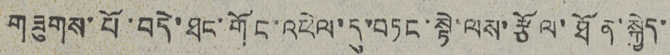གཟུགས་པོ་བདེ་ཐང་གོང་འཕེལ་དུ་བཏང་སྟེ་ལས་རྩོལ་ཐོན་སྐྱེད་
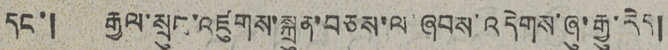དང་། རྒྱལ་སྲུང་འཛུགས་སྐྲུན་བཅས་ལ་ཞབས་འདེགས་ཞུ་རྒྱུ་རེད།
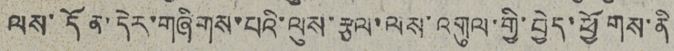ལས་དོན་དེར་གཞིགས་པའི་ལུས་རྩལ་ལས་འགུལ་གྱི་བྱེད་ཕྱོགས་ནི
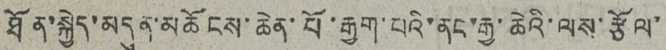ཐོན་སྐྱེད་མདུན་མཆོངས་ཆེན་པོ་རྒྱག་པའི་ནང་རྒྱ་ཆེའི་ལས་རྩོལ་
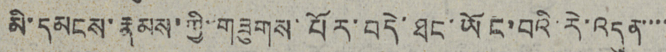མི་དམངས་རྣམས་ཀྱི་གཟུགས་པོར་བདེ་ཐང་ཡོང་བའི་རེ་འདུན་་་་
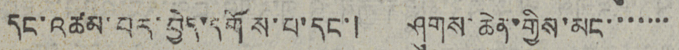དང་འཚམ་པར་བྱེད་དགོས་པ་དང་། ཤུགས་ཆེན་གྱིས་མང་་་་་
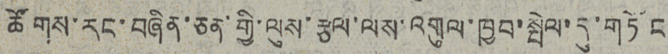ཚོགས་རང་བཞིན་ཅན་གྱི་ལུས་རྩལ་ལས་འགུལ་ཁྱབ་སྤེལ་དུ་གཏོང
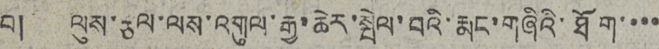བ། ལུས་རྩལ་ལས་འགུལ་རྒྱ་ཆེར་སྤེལ་བའི་རྨང་གཞིའི་ཐོག་་་་
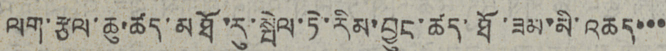ལག་རྩལ་ཆུ་ཚད་མཐོ་རུ་སྤེལ་ཏེ་རིམ་བྱུང་ཚད་ཐོ་ཟམ་མི་འཆད་་་
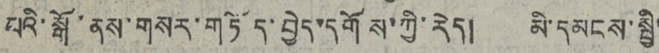པའི་སྒོ་ནས་གསར་གཏོད་བྱེད་དགོས་ཀྱི་རེད། མི་དམངས་སྤྱི་
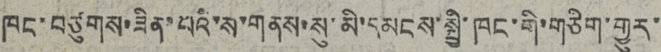ཁང་བཙུགས་ཟིན་པའི་ས་གནས་སུ་མི་དམངས་སྤྱི་ཁང་གི་གཅིག་གྱུར་
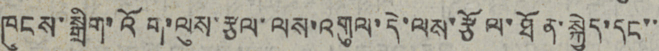ཁུངས་སྒྲིག་འོག་ལུས་རྩལ་ལས་འགུལ་དེ་ལས་རྩོལ་ཐོན་སྐྱེད་དང་་
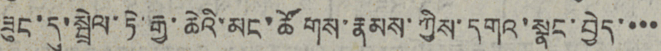ཟུང་དུ་སྦྲེལ་ཏེ་རྒྱ་ཆེའི་མང་ཚོགས་རྣམས་ཀྱིས་དགའ་སྣང་བྱེད་་་་
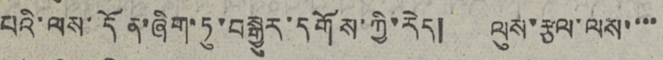པའི་ལས་དོན་ཞིག་ཏུ་བསྒྱུར་དགོས་ཀྱི་རེད། ལུས་རྩལ་ལས་་་་
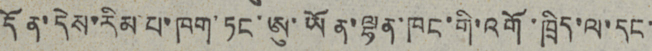དོན་དེས་རིམ་པ་ཁག་ཏང་ཨུ་ཡོན་ལྷན་ཁང་གི་འགོ་ཁྲིད་ལ་དང་
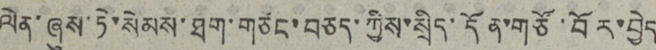ལེན་ཞུས་ཏེ་སེམས་ཐག་གཙང་བཅད་ཀྱིས་སྲིད་དོན་གཙོ་བོར་བྱེད
